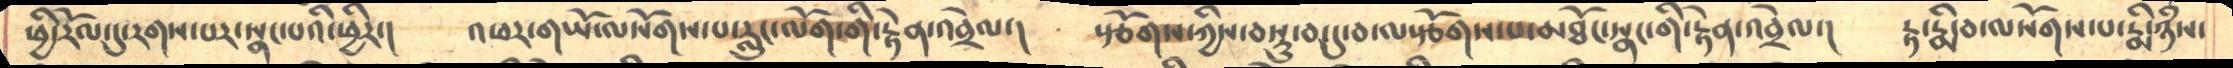ཕྱི་རོལ་དུ་རགས་པར་སྣང་པའི་ཕྱིར་།   འཕར་གཡོ་ལསོགས་པ་རླུང་ལོག་གི་རྟེན་འབྲེལ་།   སྩོགས་ཀྱིས་བསྡུ་བ་དུ་བ་ལ་སྩོགས་པ་མཐོང་སྣང་གི་རྟེན་འབྲེལ་།   རྟ་རྨི་བ་ལསོགས་པ་རྨི་ཉཾས་
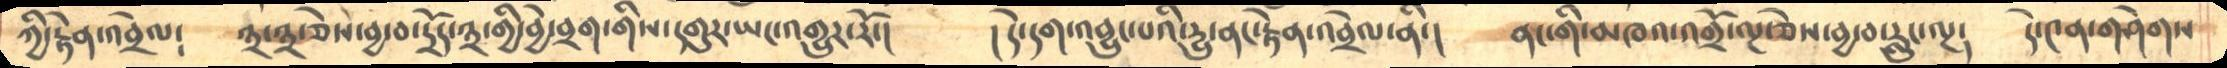ཀྱི་རྟེན་འབྲེལ༴    ༣་༣་ཅེས་བྱ་བ་དྲོད་༣་གྱི་བྱེ་བྲག་གིས་དགུར་ཡང་འགྱུར་རོ་།   །དེ་དག་འབྱུང་པའི་དྱུ་ནང་རྟེན་འབྲེལ་ནི་།    ནང་གི་མཁའ་འགྲོ་ལྔ་ཅེས་བྱ་བ་རླུང་ལྔ༴    དེ་༤ན་གཤེགས
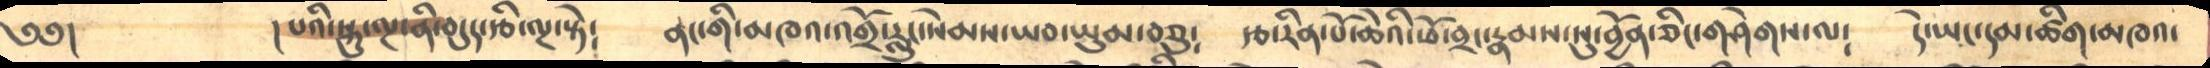༄༅།         །པའི་སྐུ་ལྔ་ནི་བདུད་རྩི་ལྔ་སྟེ༴    ནང་གི་མཁའ་འགྲོ་རླུང་སེམས་ཡབ་ཡུམ་བཅུ༴    རྩ་རིན་པོ་ཆེའི་ཕོ་བྲང་རྣམས་སུ་བྱོན་ཅིང་གཤེགས་ལ༴   དེ་ཡང་དམ་ཚིག་མཁའ་
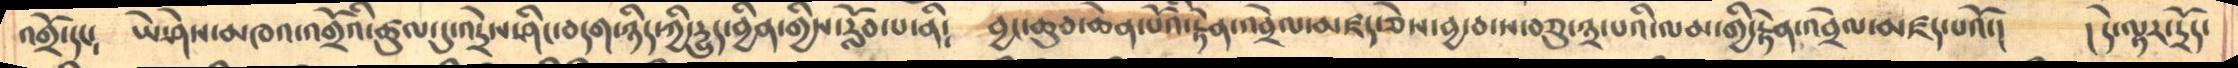འགྲོ་དང༴    ཡེ་ཤེས་མཁའ་འགྲོའི་ཚུལ་དུ་འདྲེས་ཤིང་བདག་ཉིད་ཀྱི་རྒྱུད་བྱིན་གྱིས་རློབ་པ་ནི༴    བྱང་ཆུབ་ཆེན་པོའི་རྟེན་འབྲེལ་མཛད་ཅེས་བྱ་བ་ས་བཅུ་༣་པའི་ལམ་གྱི་རྟེན་འབྲེལ་མཛད་པའོ་།    །དེ་ལྟར་དྲོད་
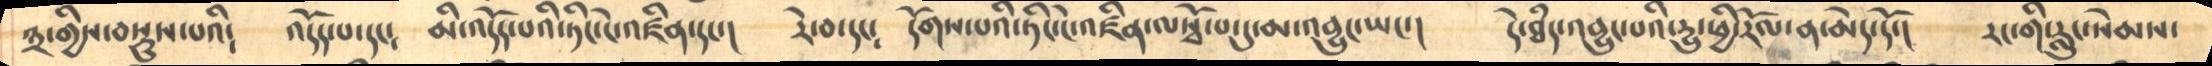༣་གྱིས་བསྡུས་པའི༴    འདོད་པ་དང༴   མི་འདོད་པའི་ཏེང་ངེ་འཛིན་དང་།    རེ་བ་དང༴  དོགས་པའི་ཏིང་ངེ་འཛིན་ལསྭོ་པ་དུ་མ་འབྱུང་ཡང་།    དེ་ཐྃད་འབྱུང་པའི་དྱུ་ཕྱི་རོལ་ན་མེད་དོ་།    རང་གི་རླུང་སེམས་
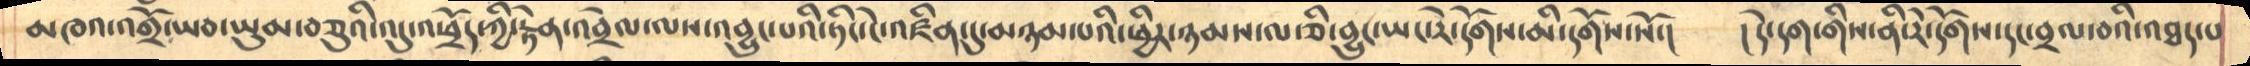མཁའ་འགྲོ་ཡབ་ཡུམ་བཅུའི་འདུ་འཕྲོད་ཀྱི་རྟེན་འབྲེལ་ལས་འབྱུང་པའི་ཏིང་ངེ་འཛིན་དུ་མཉམ་པའི་ཕྱིར་ཉམས་ལ་ཅི་བྱུང་ཡང་རེ་དོགས་མི་དགོས་སོ་།    །དེ་དག་གིས་ནི་རེ་དོགས་དང་བྲལ་བའི་འཐད་པ
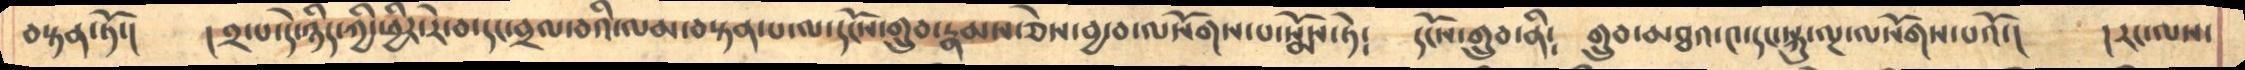བསྟན་ཏོ་།    །༢་པ་དེ་ཉིད་ཀྱི་ཕྱིར་རེ་བ་དང་བྲལ་བའི་ལམ་བསྟན་པ་ལ་དངོས་གྲུབ་རྣམས་ཅེས་བྱ་བ་ལསོགས་པ་སྨོས་ཏེ༴   དངོས་གྲུབ་ནི༴   གྲུབ་མཐའ་༤་དང་སྐུ་ལྔ་ལསོགས་པའོ་།   དརང་ལས་
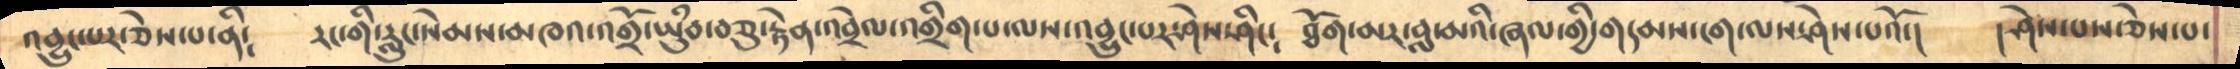འབྱུང་པར་ཅེས་པ་ནི༴     རང་གི་རླུང་སེམས་མཁའ་འགྲོ་ཡུཾབ་བཅུ་རྟེན་འབྲེལ་འགྲིག་པ་ལས་འབྱུང་པར་ཤེས་ཤིང༴   ཐོག་མར་བླ་མའི་ཞལ་གྱི་གདམས་ངག་ལས་ཤེས་པའོ་།    །ཤེས་པས་ཅེས་པ་
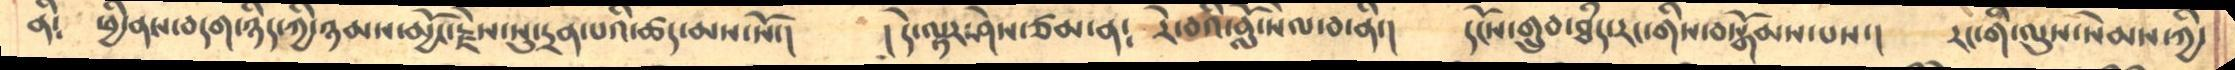ནི༴     ཕྱི་ནས་བདག་ཉིད་ཀྱི་ཉམས་མྱོང་རྗེས་སུ་དྲན་པའི་ཚད་མས་སོ་།    ། དེ་ལྟར་ཤེས་ཙམ་ན༴   རེ་བའི་བློ་སེལ་བ་ནི་།   དངོས་གྲུབ་ཐཾད་རང་གིས་བསྒོམས་པས་།   རང་གི་ལུས་སེམས་ཀྱི་
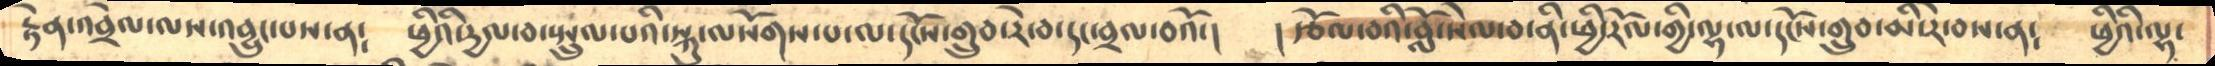རྟེན་འབྲེལ་ལས་འབྱུང་པས་ན༴    ཕྱིའི་དྱལ་བ་སྤྲུལ་པའི་སྐུ་ལསོགས་པ་ལ་དངོས་གྲུབ་རེ་བ་དང་བྲལ་བའོ་།    ། རྩོལ་བའི་བློ་སེལ་བ་ནི་ཕྱི་རོལ་གྱི་ལྷ་ལ་དངོས་གྲུབ་མི་རེ་བས་ན༴   ཕྱིའི་ལྷ་
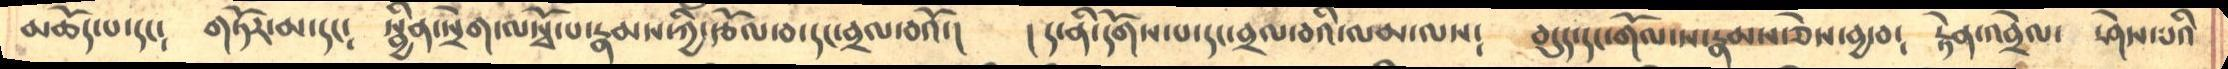མཆོད་པ་དང༴    གཏོར་མ་དང༴    སྦྱིན་སྲེག་ལསྭོ་པ་རྣམས་ཀྱི་རྩོལ་བ་དང་བྲལ་བའོ་།    ། ད་ནི་དགོས་པ་དང་བྲལ་བའི་ལམ་ལས༴   བདུད་དང་གོལ་ས་རྣམས་ཅེས་བྱ་བ༴   རྟེན་འབྲེལ་   ཤེས་པའི
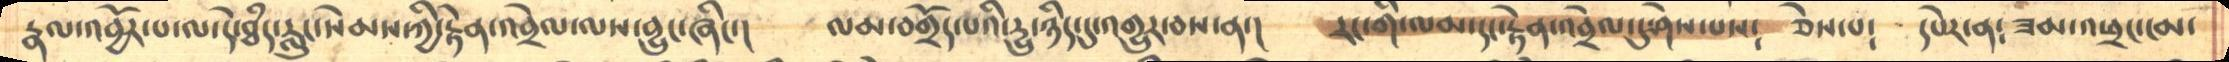རྣལ་འབྱོར་པ་ལ་དེ་ཐཾད་རླུང་སེམས་ཀྱི་རྟེན་འབྲེལ་ལས་བྱུང་ཞིང་།     ལམ་བགྲོད་པའི་དྱུ་ཉིད་དུ་འགྱུར་བས་ན་།    རང་གི་ལམ་དང་རྟེན་འབྲེལ་དུ་ཤེས་པས༴  ཅེས་པ༴    དཔེར་ན༴ ཟམ་འཕྲང་ངམ་
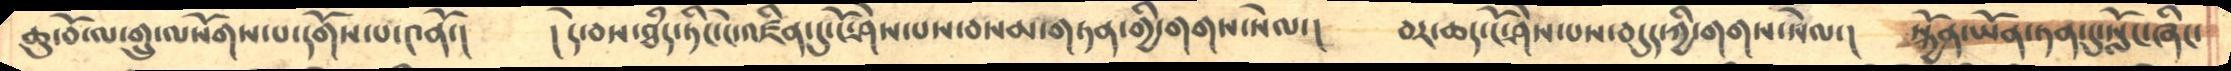ཆུ་བོ་ལ་གྲུ་ལསོགས་པ་དགོས་པ་༤ནོ་།    །དེ་བས་ཐྃད་ཏིང་ངེ་འཛིན་དུ་ངོ་ཤེས་པས་བསམ་གཏན་གྱི་གགས་སེལ་།   བར་ཆད་ངོ་ཤེས་པས་བདུད་ཀྱི་གགས་སེལ་།  སྐྱོན་ཡོན་ཏན་དུ་སློང་ཞིང་
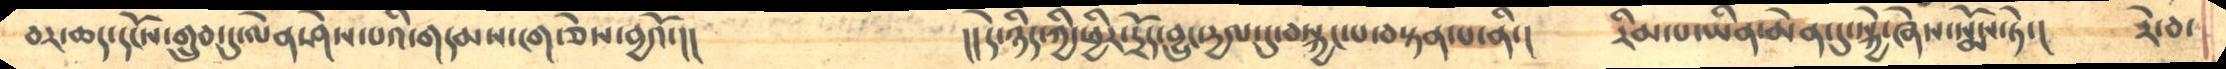བར་ཆད་དངོས་གྲུབ་དུ་ལེན་ཤེས་པའི་གདམས་ངག་ཅེས་བྱའོ་།།          །།དེ་ཉིད་ཀྱི་ཕྱིར་དྲོད་བྱུང་དྱལ་དུ་བསྐྱང་པ་བསྟན་པ་ནི་།     རིམ་པ་ཡིན་མེན་དུ་སྐྱེ་ཞེས་སྨོས་ཏེ་།   རེ་བ་
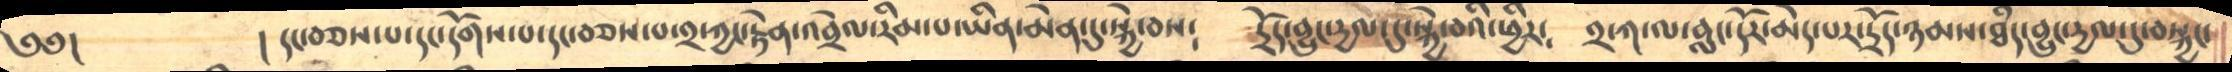༄༅།         ། དང་བཅས་པ་དང་དོགས་པ་དང་བཅས་པ་༢་ཀྱང་རྟེན་འབྲེལ་རིམ་པ་ཡིན་མེན་དུ་སྐྱེ་བས༴    དྲོད་བྱུང་དྱལ་དུ་སྐྱེ་བའི་ཕྱིར༴     ༢་ཀ་ལ་བླང་དོར་མེད་པར་དྲོད་ཉམས་ཐྃད་བྱུང་དྱལ་དུ་བསྐྱང་
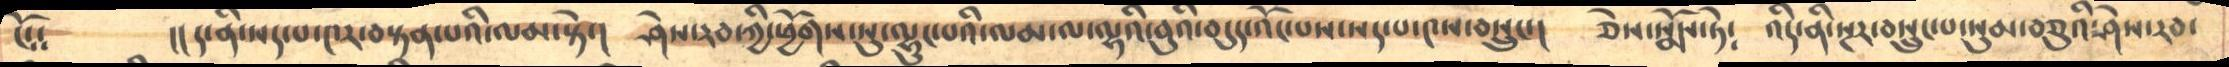ངོ༴༴     །།ད་ནི་སད་པ་༤ར་བསྟན་པའི་ལམ་སྟེ་།    ཤེས་རབ་ཀྱི་ཕྱོགས་སུ་ལྷུང་པའི་ལམ་ལ་ལྷའི་བུའི་བདུད་འོང་པས་སད་པ་༤ས་བསྲུང་།  ཅེས་སྨོས་ཏེ༴   འདི་ནི་སྔར་བསྲུང་པ་སུམ་བཅུའི་ཤེས་རབ་
